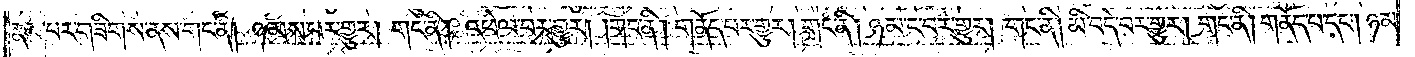རྣམ་པར་གཟིགས་ནས་གང་ནི། ཉམས་པར་གྱུར། གང་ནི། འཕེལ་བར་གྱུར། །གང་ནི། གནོད་པར་གྱུར། གང་ནི། ཉམ་ང་བར་གྱུར། གང་ནི། མི་བདེ་བར་གྱུར། གང་ནི། གནོད་པ་དང༌། ཉམ་
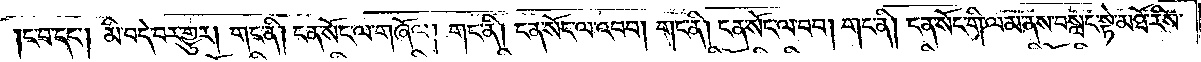།ང་བ་དང༌། མི་བདེ་བར་གྱུར། གང་ནི། ངན་སོང་ལ་གཞོལ། གང་ནི། ངན་སོང་ལ་འབབ། གང་ནི། ངན་སོང་ལ་བབ། གང་ནི། ངན་སོང་གི་ལམ་ནས་བསླང་སྟེ་མཐོ་རིས་
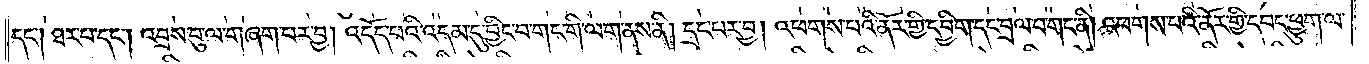དང༌། ཐར་པ་དང༌། འབྲས་བུ་ལ་གཞག་པར་བྱ། འདོད་པའི་འདམ་དུ་བྱིང་བ་གང་གི་ལག་ནས་ནི། དྲང་བར་བྱ། འཕགས་པའི་ནོར་གྱི་དབྱིག་དང་བྲལ་བ་གང་ནི། འཕགས་པའི་ནོར་གྱི་དབང་ཕྱུག་ལ་
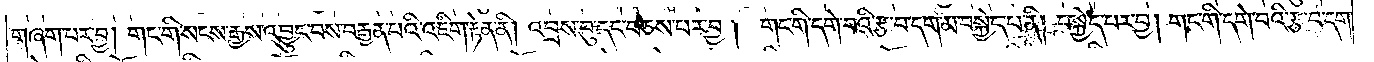གཞག་པར་བྱ། གང་གི་སངས་རྒྱས་འབྱུང་བས་བརྒྱན་པའི་འཇིག་རྟེན་ནི། འབྲས་བུ་དང་བཅས་པར་བྱ། གང་གི་དགེ་བའི་རྩ་བ་དག་མ་བསྐྱེད་པ་ནི། བསྐྱེད་པར་བྱ། གང་གི་དགེ་བའི་རྩ་བ་དག་
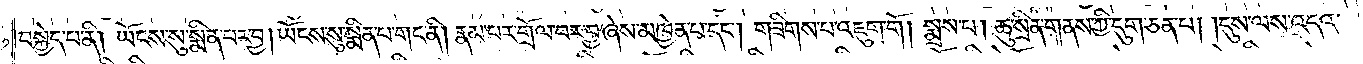བསྐྱེད་པ་ནི། ཡོངས་སུ་སྨིན་པར་བྱ། ཡོངས་སུ་སྨིན་པ་གང་ནི། རྣམ་པར་གྲོལ་བར་བྱ་ཞེས་མཁྱེན་པ་དང༌། གཟིགས་པ་འཇུག་གོ །སྨྲས་པ། ཆུ་སྲིན་གནས་ཀྱི་དུག་ཅན་པ། །དུས་ལས་འདའ་
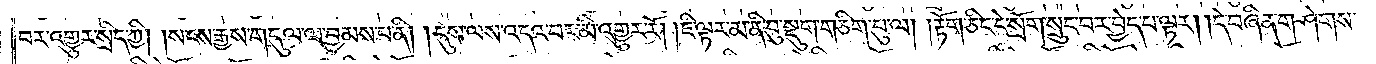བར་འགྱུར་སྲིད་ཀྱི། །སངས་རྒྱས་གདུལ་ལ་བྱམས་པ་ནི། །དུས་ལས་འདའ་བར་མི་འགྱུར་རོ། །ཇི་ལྟར་མ་ནི་བུ་སྡུག་གཅིག་པུ་ལ། །རྟོག་ཅིང་དེ་སྲོག་སྲུང་བར་བྱེད་པ་ལྟར། །དེ་བཞིན་གཤེགས་
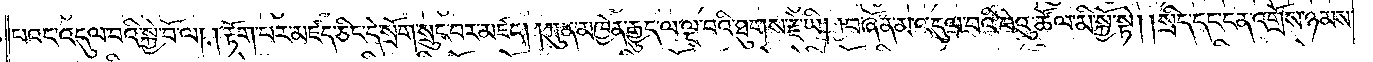པའང་འདུལ་བའི་སྐྱེ་བོ་ལ། །རྟོག་པར་མཛད་ཅིང་དེ་སྲོག་སྲུང་བར་མཛད། །ཀུན་མཁྱེན་རྒྱུད་ལ་ལྔ་བའི་ཐུགས་རྗེ་ཡི། །བཞོན་མ་འདུལ་བའི་བེའུ་ཚོལ་མི་སྐྱོ་སྟེ། །སྲིད་དང་ངན་འགྲོས་ཉམས་
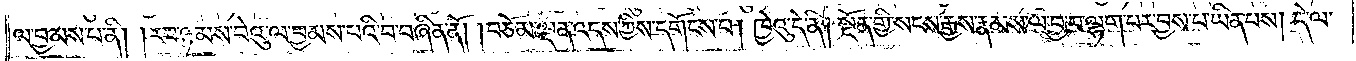ལ་བྱམས་པ་ནི། །རབ་ཉམས་བེའུ་ལ་བྱམས་པའི་བ་བཞིན་ནོ། །བཅོམ་ལྡན་འདས་ཀྱིས་དགོངས་པ། ཁྱེའུ་དེ་ནི། སྔོན་གྱི་སངས་རྒྱས་རྣམས་ལ་བྱ་བ་ལྷག་པར་བྱས་པ་ཡིན་པས། དེ་ལ་
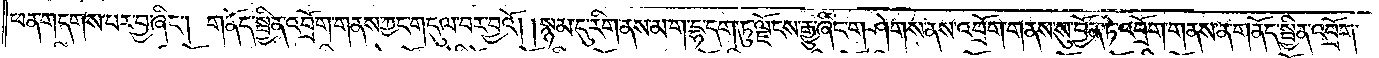ཕན་གདགས་པར་བྱ་ཞིང༌། གནོད་སྦྱིན་འབྲོག་གནས་ཀྱང་གདུལ་བར་བྱའོ། །སྙམ་དུ་རིག་ནས་མ་ག་དྷ་དག་ཏུ་ལྗོངས་རྒྱུ་ཞིང་གཤེགས་ནས་འབྲོག་གནས་སུ་བྱོན་ཏེ་འབྲོག་གནས་ན་གནོད་སྦྱིན་འབྲོག་
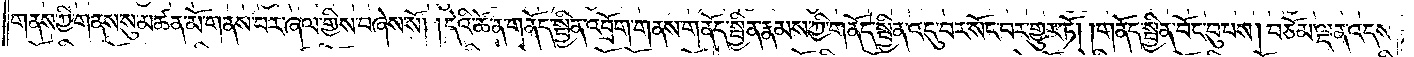གནས་ཀྱི་གནས་སུ་མཚན་མོ་གནས་པར་ཞལ་གྱིས་བཞེས་སོ། །དེའི་ཚེ་ན་གནོད་སྦྱིན་འབྲོག་གནས་གནོད་སྦྱིན་རྣམས་ཀྱི་གནོད་སྦྱིན་འདུ་བར་སོང་བར་གྱུར་ཏོ། །གནོད་སྦྱིན་བོང་བུ་པས། བཅོམ་ལྡན་འདས་
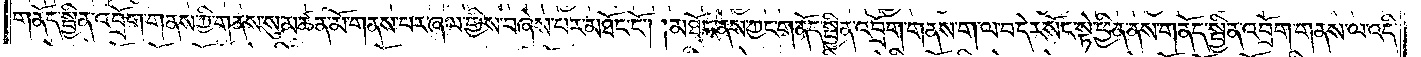གནོད་སྦྱིན་འབྲོག་གནས་ཀྱི་གནས་སུ་མཚན་མོ་གནས་པར་ཞལ་གྱིས་བཞེས་པར་མཐོང་ངོ༌། །མཐོང་ནས་ཀྱང་གནོད་སྦྱིན་འབྲོག་གནས་ག་ལ་བ་དེར་སོང་སྟེ་ཕྱིན་ནས་གནོད་སྦྱིན་འབྲོག་གནས་ལ་འདི་
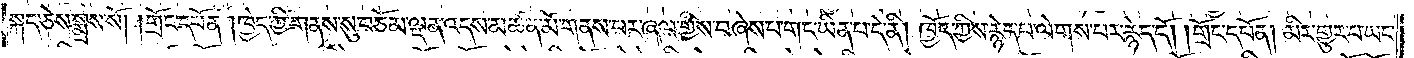སྐད་ཅེས་སྨྲས་སོ། །གྲོང་དཔོན། ཁྱེད་ཀྱི་གནས་སུ་བཅོམ་ལྡན་འདས་མཚན་མོ་གནས་པར་ཞལ་གྱིས་བཞེས་པ་གང་ཡིན་པ་དེ་ནི། ཁྱོད་ཀྱིས་རྙེད་པ་ལེགས་པར་རྙེད་དོ། །གྲོང་དཔོན། མི་གྱུར་པ་ཡང་
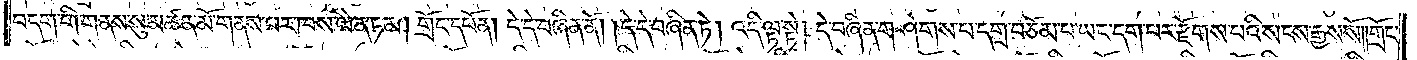བདག་གི་གནས་སུ་མཚན་མོ་གནས་པར་ཁས་ལེན་ཏམ། གྲོང་དཔོན། དེ་དེ་བཞིན་ནོ། །དེ་དེ་བཞིན་ཏེ། འདི་ལྟ་སྟེ། དེ་བཞིན་གཤེགས་པ་དགྲ་བཅོམ་པ་ཡང་དག་པར་རྫོགས་པའི་སངས་རྒྱས་སོ༎གྲོང་
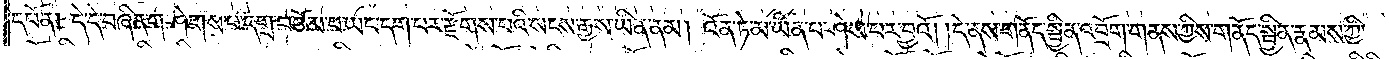དཔོན། དེ་དེ་བཞིན་གཤེགས་པ་དགྲ་བཅོམ་པ་ཡང་དག་པར་རྫོགས་པའི་སངས་རྒྱས་ཡིན་ནམ། འོན་ཏེ་མ་ཡིན་པ་ཤེས་པར་བྱའོ། །དེ་ནས་གནོད་སྦྱིན་འབྲོག་གནས་ཀྱིས་གནོད་སྦྱིན་རྣམས་ཀྱི་
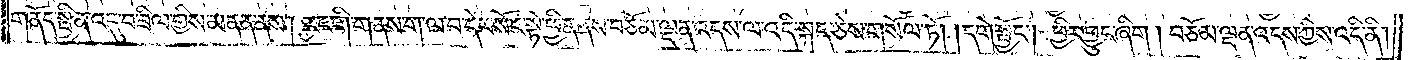གནོད་སྦྱིན་འདུ་བ་ཟིལ་གྱིས་མནན་ནས། རང་གི་གནས་ག་ལ་བ་དེར་སོང་སྟེ་ཕྱིན་ནས་བཅོམ་ལྡན་འདས་ལ་འདི་སྐད་ཅེས་སོལ་ཏོ། །དགེ་སྦྱོང༌། ཕྱིར་ཕྱུང་ཞིག །བཅོམ་ལྡན་འདས་ཀྱིས་འདི་ནི།
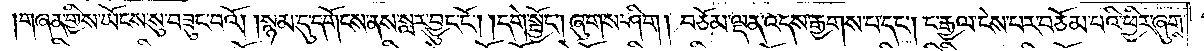གཞན་གྱིས་ཡོངས་སུ་བཟུང་བའོ། །སྙམ་དུ་དགོངས་ནས་སླར་བྱུང་ངོ༌། །དགེ་སྦྱོང༌། ཞུགས་ཤིག །བཅོམ་ལྡན་འདས་རྒྱགས་པ་དང༌། ང་རྒྱལ་ངེས་པར་བཅོམ་པའི་ཕྱིར་ཞུགས་
